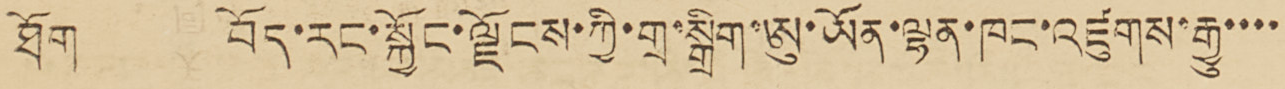ཐོག བོད་རང་སྐྱོང་ལྗོངས་ཀྱི་གྲ་སྒྲིག་ཨུ་ཡོན་ལྷན་ཁང་འཛུགས་རྒྱུ་་་་
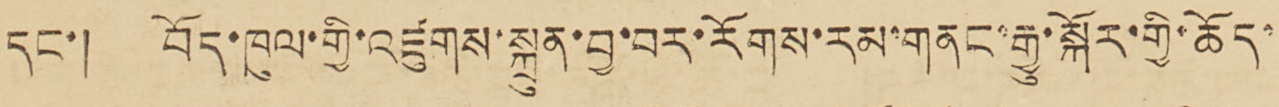དང་། བོད་ཁུལ་གྱི་འཛུགས་སྐྲུན་བྱ་བར་རོགས་རམ་གནང་རྒྱུ་སྐོར་གྱི་ཆོད་
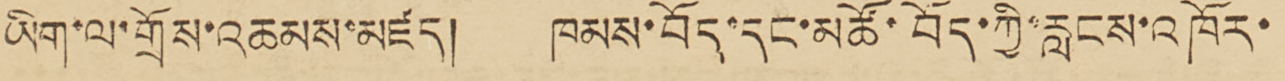ཡིག་ལ་གྲོས་འཆམས་མཛད། ཁམས་བོད་དང་མཚོ་བོད་ཀྱི་རླངས་འཁོར་
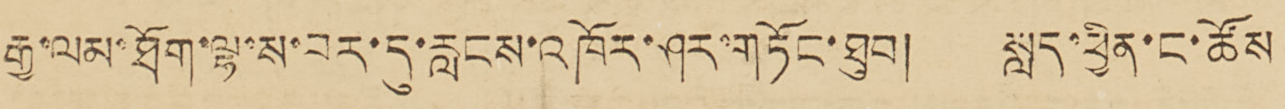རྒྱ་ལམ་ཐོག་ལྷ་ས་བར་དུ་རླངས་འཁོར་ཤར་གཏོང་ཐུབ། སླད་ཕྱིན་ང་ཚོས
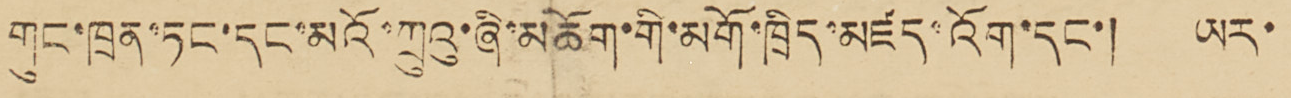གུང་ཁྲན་ཏང་དང་མའོ་ཀྲུའུ་ཞི་མཆོག་གི་མགོ་ཁྲིད་མཛད་འོག་དང་། ཡར་
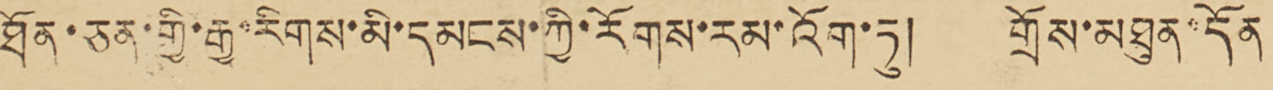ཐོན་ཅན་གྱི་རྒྱ་རིགས་མི་དམངས་ཀྱི་རོགས་རམ་འོག་ཏུ། གྲོས་མཐུན་དོན
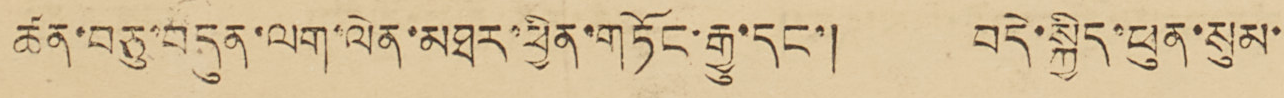ཚན་བཅུ་བདུན་ལག་ལེན་མཐར་ཕྱིན་གཏོང་རྒྱུ་དང་། བདེ་སྐྱིད་ཕུན་སུམ་
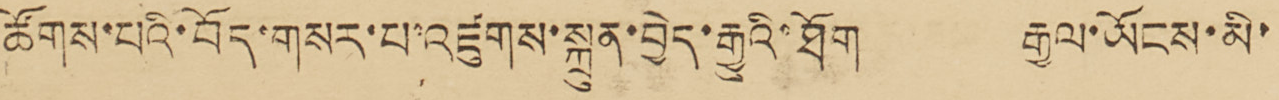ཚོགས་པའི་བོད་གསར་པ་འཛུགས་སྐྲུན་བྱེད་རྒྱུའི་ཐོག རྒྱལ་ཡོངས་མི་
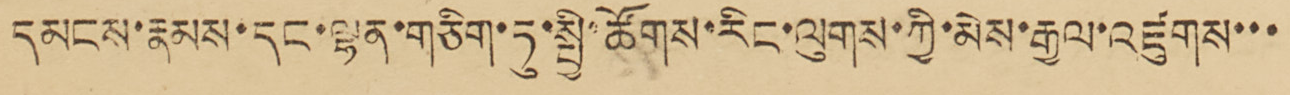དམངས་རྣམས་དང་ལྷན་གཅིག་ཏུ་སྤྱི་ཚོགས་རིང་ལུགས་ཀྱི་མེས་རྒྱལ་འཛུགས་་་
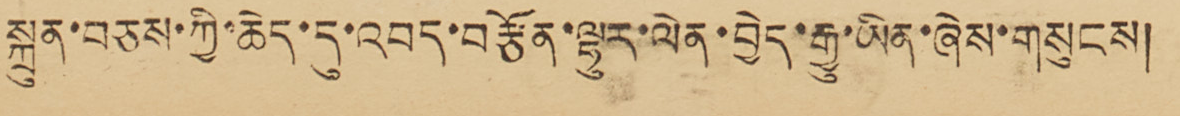སྐྲུན་བཅས་ཀྱི་ཆེད་དུ་འབད་བརྩོན་ལྷུར་ལེན་བྱེད་རྒྱུ་ཡིན་ཞེས་གསུངས།
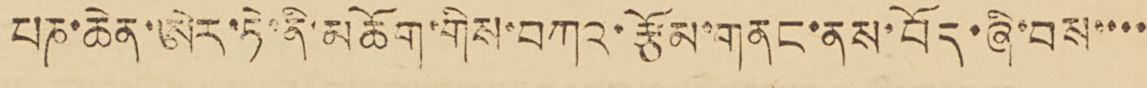པཎ་ཆེན་ཨེར་ཏེ་ནི་མཆོག་གིས་བཀའ་རྩོམ་གནང་ནས་བོད་ཞི་བས་་་་
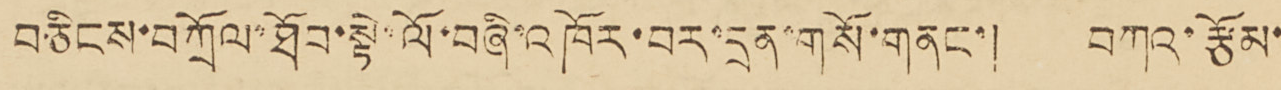བཅིངས་བཀྲོལ་ཐོབ་སྟེ་ལོ་བཞི་འཁོར་བར་དྲན་གསོ་གནང་། བཀའ་རྩོམ་
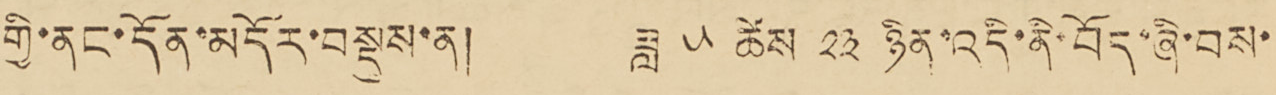གྱི་ནང་དོན་མདོར་བསྡུས་ན། ཟླ ༥ ཚེས ༢༣ ཉིན་འདི་ནི་བོད་ཞི་བས་
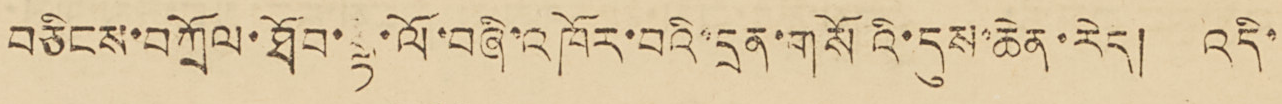བཅིངས་བཀྲོལ་ཐོབ་ལྟ་ལོ་བཞི་འཁོར་བའི་དྲན་གསོའི་དུས་ཆེན་རེད། འདི་
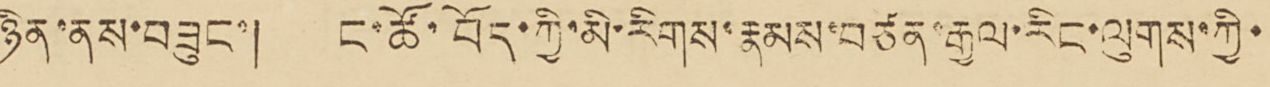ཉིན་ནས་བཟུང་། ང་ཚོ་བོད་ཀྱི་མི་རིགས་རྣམས་བཙན་རྒྱལ་རིང་ལུགས་ཀྱི་
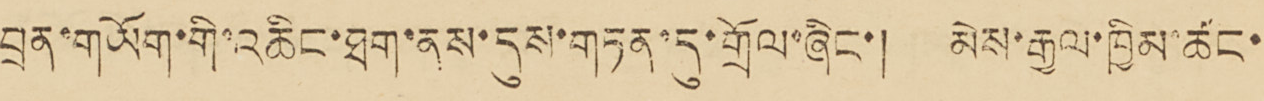བྲན་གཡོག་གི་འཆིང་ཐག་ནས་དུས་གཏན་དུ་གྲོལ་ཞིང་། མེས་རྒྱལ་ཁྱིམ་ཚང་
